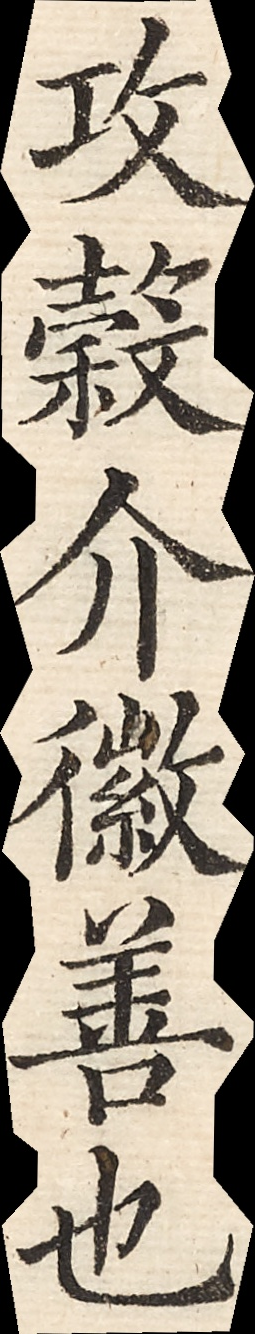攻穀介徽善也
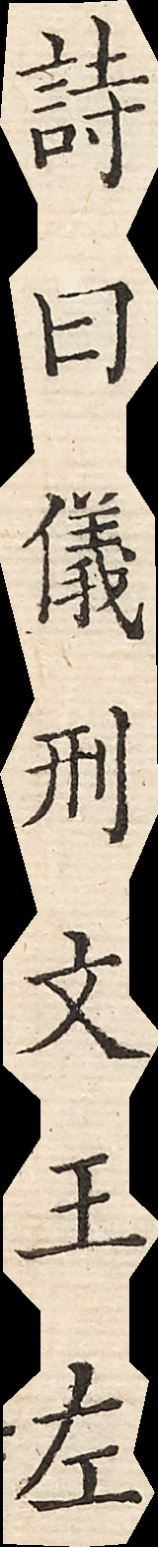詩曰儀刑文王左
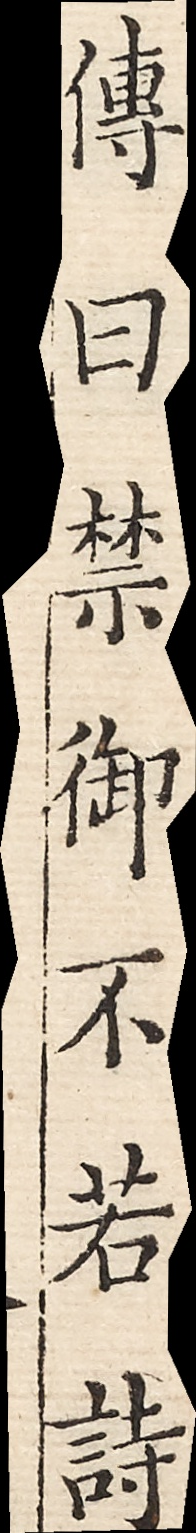傳曰禁禦不若詩
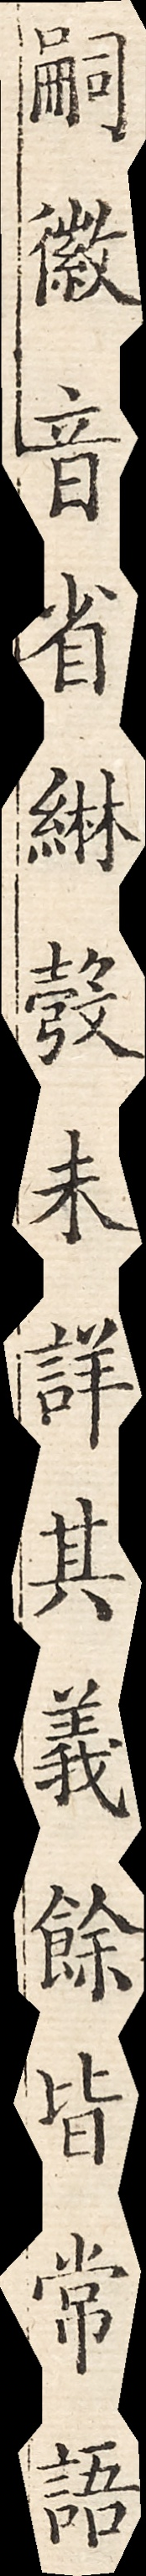嗣徽音省綝彀未詳其義餘皆常語
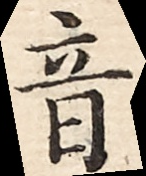音
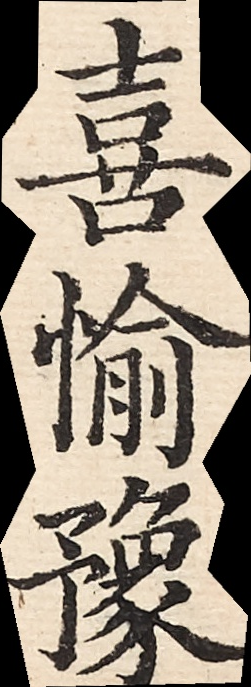喜愉豫
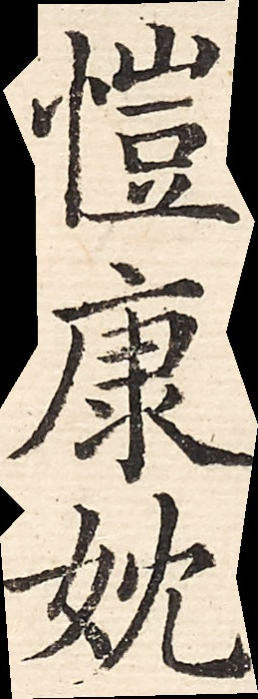愷康妉
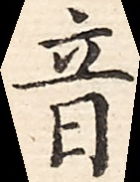音
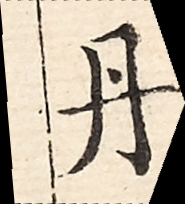丹
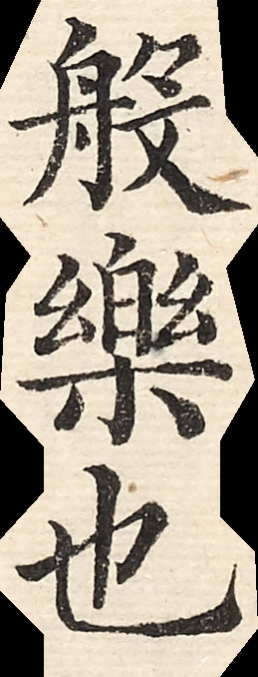般樂也
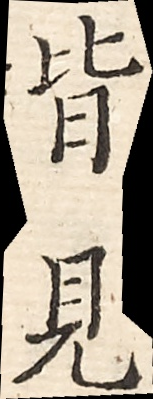皆見
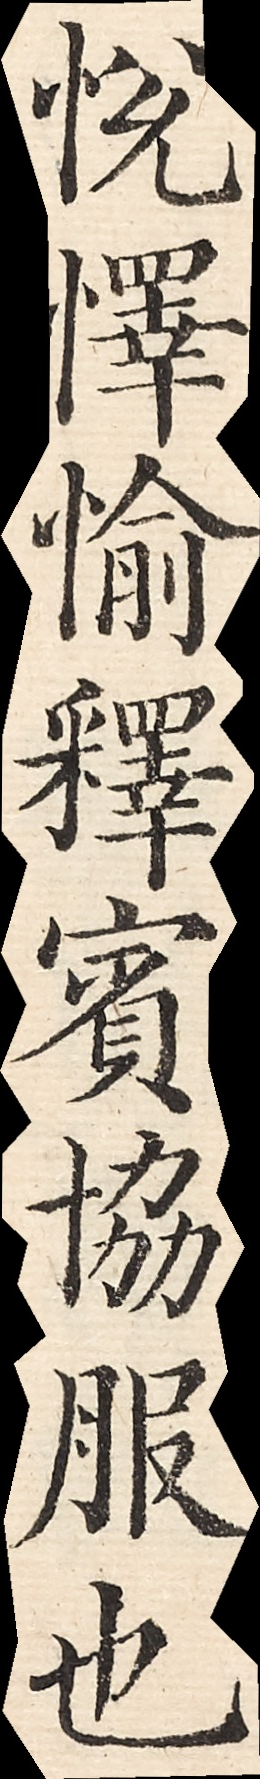悅懌愉釋賓協服也
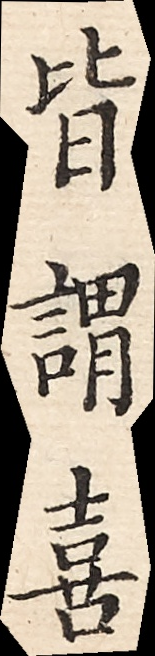皆謂喜
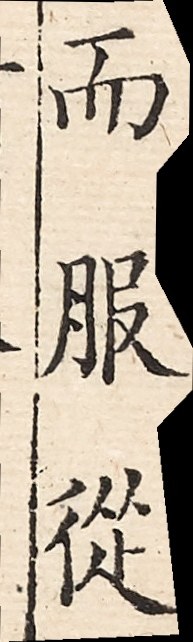而服從
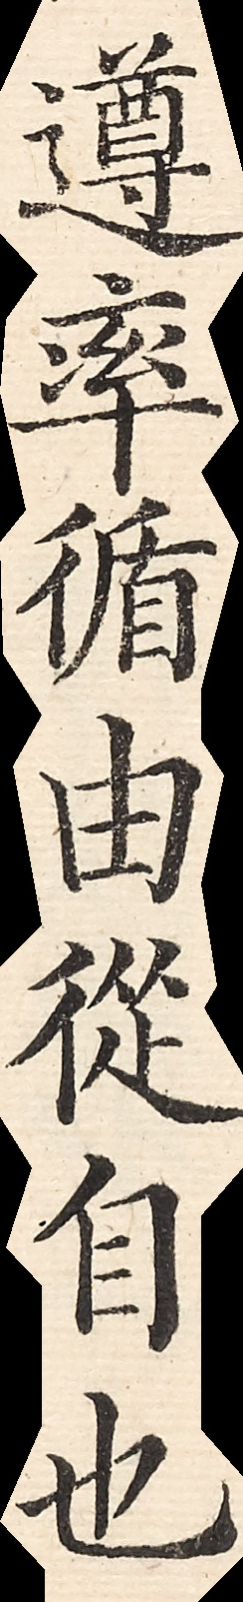遵率循由從自也
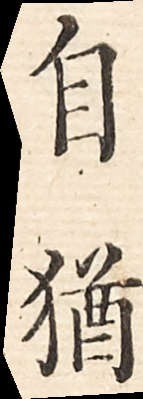自猶
